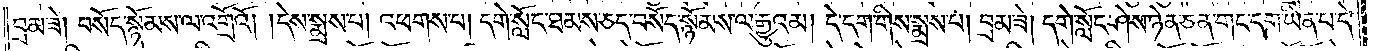བྲམ་ཟེ། བསོད་སྙོམས་ལ་འགྲོའོ། །དེས་སྨྲས་པ། འཕགས་པ། དགེ་སློང་ཐམས་ཅད་བསོད་སྙོམས་ལ་རྒྱུའམ། དེ་དག་གིས་སྨྲས་པ། བྲམ་ཟེ། དགེ་སློང་ཤེས་ཉེན་ཅན་གང་དག་ཡིན་པ་དེ་
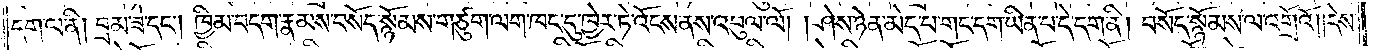དག་ལ་ནི། བྲམ་ཟེ་དང༌། ཁྱིམ་བདག་རྣམས་བསོད་སྙོམས་གཙུག་ལག་ཁང་དུ་ཁྱེར་ཏེ་འོངས་ནས་འབུལ་ལོ། །ཤེས་ཉེན་མེད་པ་གང་དག་ཡིན་པ་དེ་དག་ནི། བསོད་སྙོམས་ལ་འགྲོའོ། །དེས་
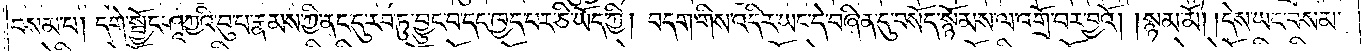བསམ་པ། དགེ་སྦྱོང་ཤཱཀྱའི་བུ་པ་རྣམས་ཀྱི་ནང་དུ་རབ་ཏུ་བྱུང་བ་དང་ཁྱད་པར་ཅི་ཡོད་ཀྱི། བདག་གིས་འདིར་ཡང་དེ་བཞིན་དུ་བསོད་སྙོམས་ལ་འགྲོ་བར་བྱའོ། །སྙམ་མོ། །དེས་ཡང་བསམ་
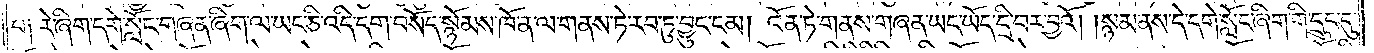པ། རེ་ཞིག་དགེ་སློང་གཞན་ཞིག་ལ་ཡང་ཅི་འདི་དག་བསོད་སྙོམས་ཁོ་ན་ལ་གནས་ཏེ་རབ་ཏུ་བྱུང་ངམ། འོན་ཏེ་གནས་གཞན་ཡང་ཡོད་དྲི་བར་བྱའོ། །སྙམ་ནས་དེ་དགེ་སློང་ཞིག་གི་དྲུང་དུ་
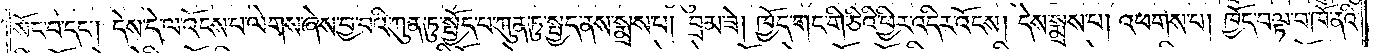སོང་བ་དང༌། དེས་དེ་ལ་འོངས་པ་ལེགས་ཞེས་བྱ་བའི་ཀུན་ཏུ་སྤྱོད་པ་ཀུན་ཏུ་སྤྱད་ནས་སྨྲས་པ། བྲམ་ཟེ། ཁྱོད་གང་གི་ཅིའི་ཕྱིར་འདིར་འོངས། དེས་སྨྲས་པ། འཕགས་པ། ཁྱོད་བལྟ་བ་ཁོ་ནའི་
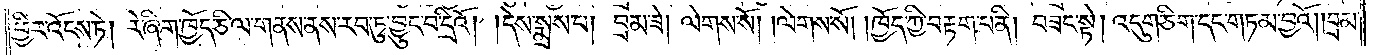ཕྱིར་འོངས་ཏེ། རེ་ཞིག་ཁྱོད་ཅི་ལ་གནས་ནས་རབ་ཏུ་བྱུང་བ་དྲིའོ། །དེས་སྨྲས་པ། བྲམ་ཟེ། ལེགས་སོ། །ལེགས་སོ། །ཁྱོད་ཀྱི་བརྟག་པ་ནི། བཟང་སྟེ། འདུག་ཅིག་དང་གཏམ་བྱའོ། །བྲམ་
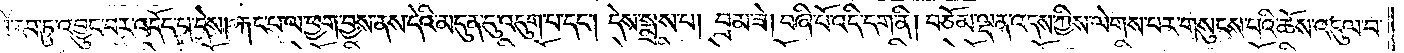ཟེ་རབ་ཏུ་འབྱུང་བར་འདོད་པ་དེས། རྐང་པ་ལ་ཕྱག་བྱས་ནས་དེའི་མདུན་དུ་འདུག་པ་དང༌། དེས་སྨྲས་པ། བྲམ་ཟེ། བཞི་པོ་འདི་དག་ནི། བཅོམ་ལྡན་འདས་ཀྱིས་ལེགས་པར་གསུངས་པའི་ཆོས་འདུལ་བ་
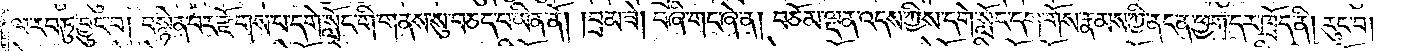ལ་རབ་ཏུ་བྱུང་བ། བསྙེན་པར་རྫོགས་པ་དགེ་སློང་གི་གནས་སུ་བཅད་པ་ཡིན་ནོ། །བྲམ་ཟེ། བཞི་གང་ཞེ་ན། བཅོམ་ལྡན་འདས་ཀྱིས་དགེ་སློང་དག་གོས་རྣམས་ཀྱི་ནང་ན་ཕྱག་དར་ཁྲོད་ནི། རུང་བ།
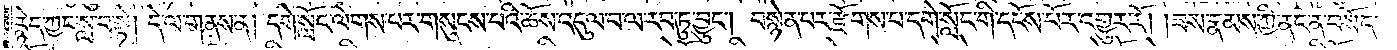རྙེད་ཀྱང་སླ་བ་སྟེ། དེ་ལ་གནས་ན། དགེ་སློང་ལེགས་པར་གསུངས་པའི་ཆོས་འདུལ་བ་ལ་རབ་ཏུ་བྱུང༌། བསྙེན་པར་རྫོགས་པ་དགེ་སློང་གི་དངོས་པོར་འགྱུར་རོ། །ཟས་རྣམས་ཀྱི་ནང་ན་བསོད་
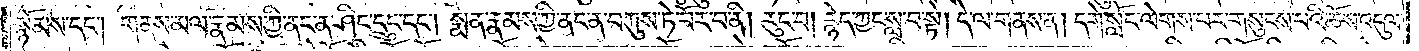སྙོམས་དང༌། གནས་མལ་རྣམས་ཀྱི་ནང་ན་ཤིང་དྲུང་དང༌། སྨན་རྣམས་ཀྱི་ནང་ན་བཀུས་ཏེ་བོར་བ་ནི། རུང་པ། རྙེད་ཀྱང་སླ་བ་སྟེ། དེ་ལ་གནས་ན། དགེ་སློང་ལེགས་པར་གསུངས་པའི་ཆོས་འདུལ་
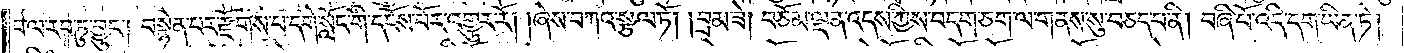བ་ལ་རབ་ཏུ་བྱུང༌། བསྙེན་པར་རྫོགས་པ་དགེ་སློང་གི་དངོས་པོར་འགྱུར་རོ། །ཞེས་བཀའ་སྩལ་ཏོ། །བྲམ་ཟེ། བཅོམ་ལྡན་འདས་ཀྱིས་བདག་ཅག་ལ་གནས་སུ་བཅད་པ་ནི། བཞི་པོ་འདི་དག་ཡིན་ཏེ།
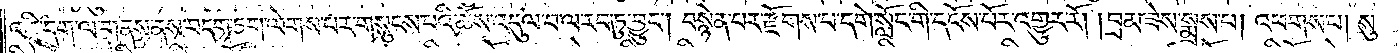འདི་དག་ལ་གནས་ནས་བདག་ཅག་ལེགས་པར་གསུངས་པའི་ཆོས་འདུལ་བ་ལ་རབ་ཏུ་བྱུང༌། བསྙེན་པར་རྫོགས་པ་དགེ་སློང་གི་དངོས་པོར་འགྱུར་རོ། །བྲམ་ཟེས་སྨྲས་པ། འཕགས་པ། སུ་
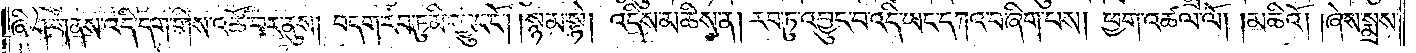ཞིག་གནས་འདི་དག་གིས་འཚོ་བར་ནུས། བདག་རབ་ཏུ་མི་འབྱུང་ངོ༌། །སྙམ་སྟེ། འདིས་མཆིས་ན། རབ་ཏུ་འབྱུང་བ་འདི་ཡང་དཀའ་བ་ཞིག་པས། ཕྱག་འཚལ་ལོ། །མཆིའོ། །ཞེས་སྨྲས་
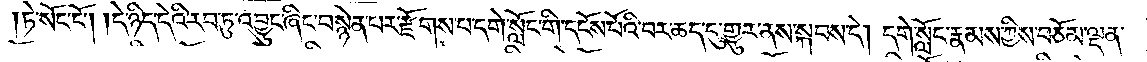ཏེ་སོང་ངོ༌། །དེ་ཉིད་དེའི་རབ་ཏུ་འབྱུང་ཞིང་བསྙེན་པར་རྫོགས་པ་དགེ་སློང་གི་དངོས་པོའི་བར་ཆད་དུ་གྱུར་ནས་སྐབས་དེ། དགེ་སློང་རྣམས་ཀྱིས་བཅོམ་ལྡན་
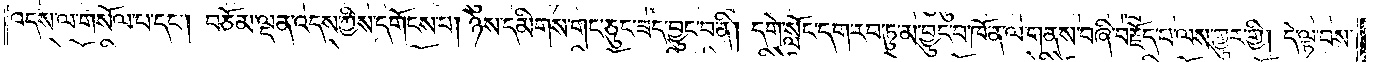འདས་ལ་གསོལ་པ་དང༌། བཅོམ་ལྡན་འདས་ཀྱིས་དགོངས་པ། ཉེས་དམིགས་གང་ཅུང་ཟད་བྱུང་བ་ནི། དགེ་སློང་དག་རབ་ཏུ་མ་བྱུང་བ་ཁོ་ན་ལ་གནས་བཞི་བརྗོད་པ་ལས་གྱུར་གྱི། དེ་ལྟ་བས་
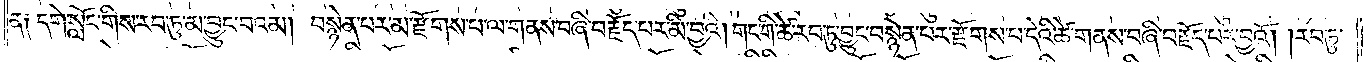ན༑ དགེ་སློང་གིས་རབ་ཏུ་མ་བྱུང་བའམ། བསྙེན་པར་མ་རྫོགས་པ་ལ་གནས་བཞི་བརྗོད་པར་མི་བྱའི། གང་གི་ཚེ་རབ་ཏུ་བྱུང་བསྙེན་པར་རྫོགས་པ་དེའི་ཚེ་གནས་བཞི་བརྗོད་པར་བྱའོ། །རབ་ཏུ་
